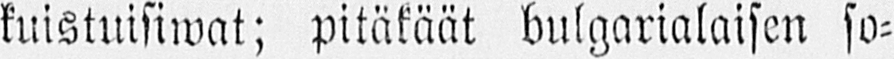kuistuisiwat; pitäkäät bulgarialaisen so-
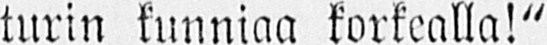turin kunniaa korkealla!"
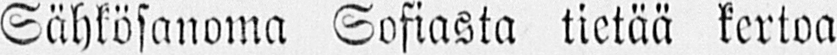Sähkösanoma Sofiasta tietää kertoa
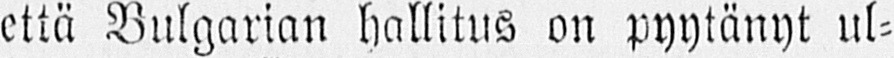että Bulgarian hallitus on pyytänyt ul-
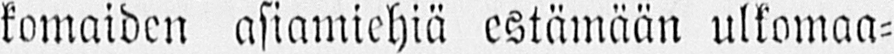komaiden asiamiehiä estämään ulkomaa-
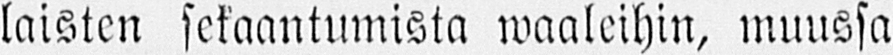laisten sekaantumista waaleihin, muussa
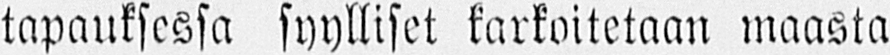tapauksessa syylliset tarkoitetaan maasta
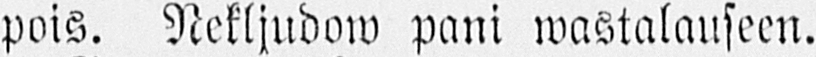pois. Nekljudow pani wastalauseen.
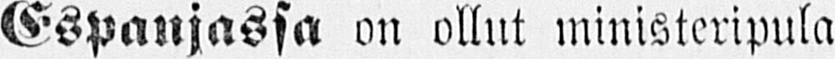Espanjassa on ollut ministeripula
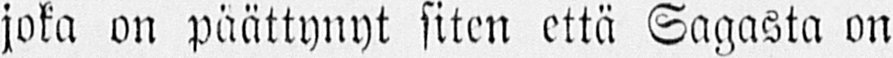joka on päättynyt siten että Sagasta on
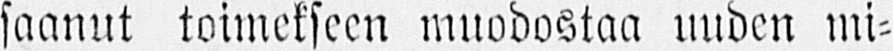saanut toimekseen muodostaa uuden mi-
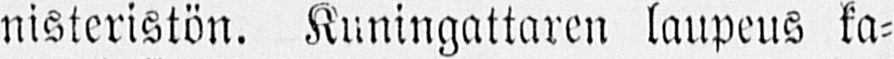nisteristön. Kuningattaren laupeus ka-
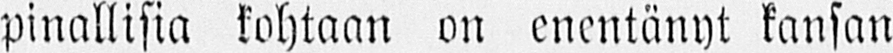pinallisia kohtaan on enentänyt kansan
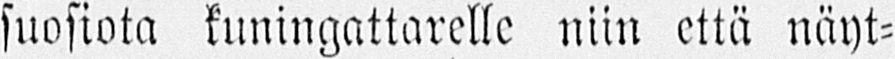suosiota kuningattarelle niin että näyt-
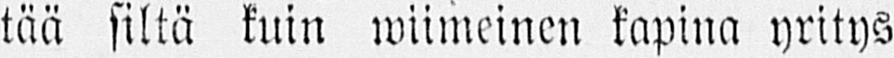tää siltä kuin wiimeinen kapina yritys
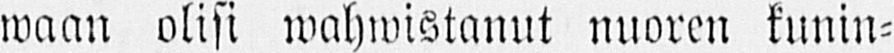waan olisi wahwistanut nuoren kunin-
